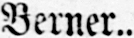Berner..
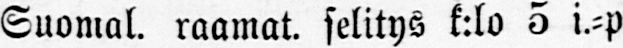Suomal, raamat. selitys k:lo 5 i.-p.
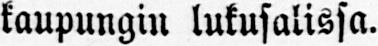kaupungin lukusalissa.
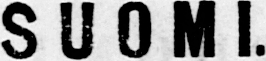SUOMI.
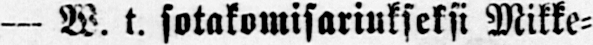— W. t. sotakomisariukseksi Mikke-
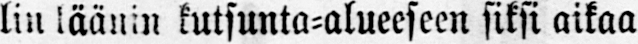lin läänin kutsunta-alueeseen siksi aikaa
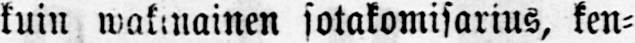kuin wakinainen sotakomisarius, ken-
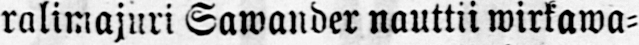ralimajuri Sawander nauttii wirkawa-
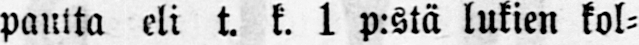pautta eli t. k. 1 p:stä lukien kol-
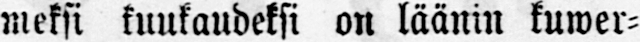meksi kuukaudeksi on läänin kuwer-
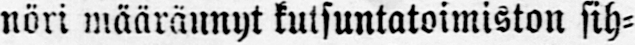nöri määrännyt kutsuntatoimiston sih-
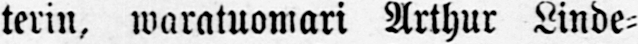terin, waratuomari Arthur Linde-
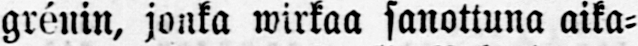grénin, jonka wirkaa sanottuna aika-
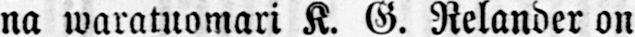na waratuomari K. G. Relander on
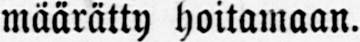määrätty hoitamaan.
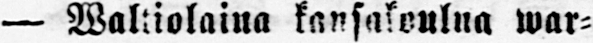— Waltiolaina kansakoulna war-
